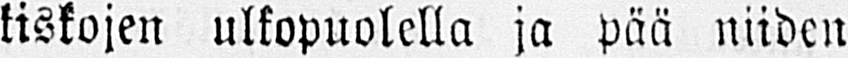kiskojen ulkopuolella ja pää niiden
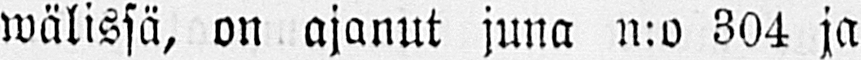wälissä, on ajanut juna n:o 304 ja
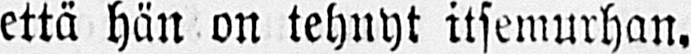että hän on tehnyt itsemurhan.
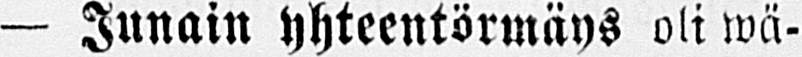— Junain yhteentörmäys oli wä-
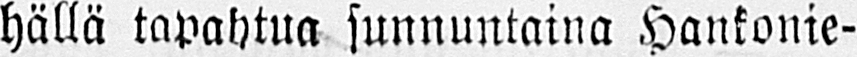hällä tapahtua sunnuntaina Hankonie-
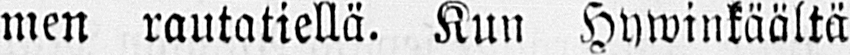men rautatiellä. Kun Hywinkäältä
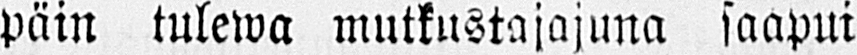päin tulewa mutkustajajuna saapui
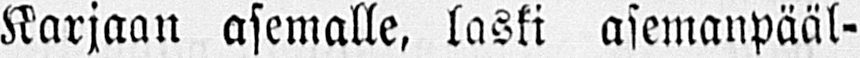Karjaan asemalle, laski asemanpääl-
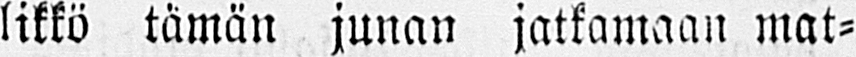likkö tämän junan jatkamaan mat-
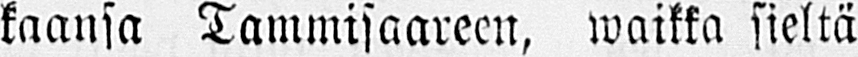kaansa Tammisaareen, waikka sieltä
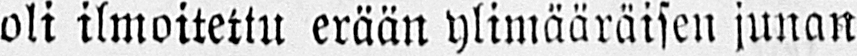oli ilmoitettu erään ylimääräisen junan
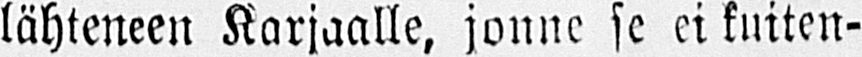lähteneen Karjaalle, jonne se ei kuiten-
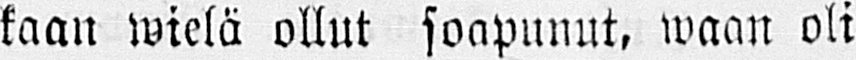kaan wielä ollut soapunut, waan oli
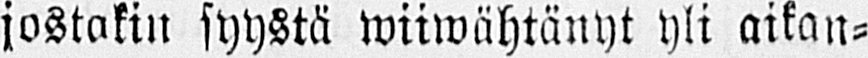jostakin syystä wiiwähtänyt yli aikan-
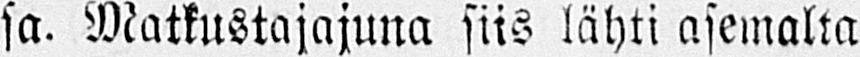sa. Matkustajajuna siis lähti asemalta
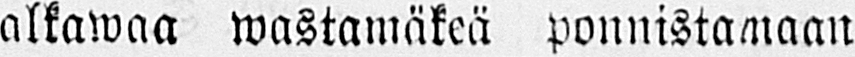alkawaa wastamäkeä ponnistamaan
